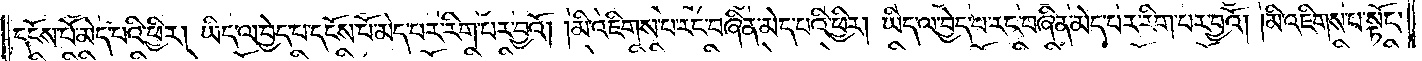དངོས་པོ་མེད་པའི་ཕྱིར། ཡིད་ལ་བྱེད་པ་དངོས་པོ་མེད་པར་རིག་པར་བྱའོ། །མི་འཇིགས་པ་རང་བཞིན་མེད་པའི་ཕྱིར། ཡིད་ལ་བྱེད་པ་རང་བཞིན་མེད་པར་རིག་པར་བྱའོ། །མི་འཇིགས་པ་སྟོང་
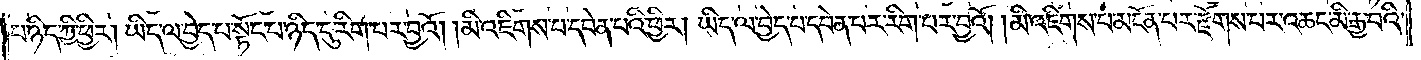པ་ཉིད་ཀྱི་ཕྱིར། ཡིད་ལ་བྱེད་པ་སྟོང་པ་ཉིད་དུ་རིག་པར་བྱའོ། །མི་འཇིགས་པ་དབེན་པའི་ཕྱིར། ཡིད་ལ་བྱེད་པ་དབེན་པར་རིག་པར་བྱའོ། །མི་འཇིགས་པ་མངོན་པར་རྫོགས་པར་འཚང་མི་རྒྱ་བའི་
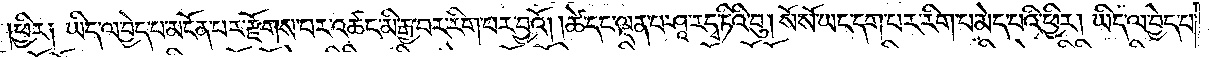ཕྱིར༏ ཡིད་ལ་བྱེད་པ་མངོན་པར་རྫོགས་པར་འཚང་མི་རྒྱ་བར་རིག་པར་བྱའོ། །ཚེ་དང་ལྡན་པ་ཤཱ་ར་དྭ་ཏིའི་བུ། སོ་སོ་ཡང་དག་པར་རིག་པ་མེད་པའི་ཕྱིར། ཡིད་ལ་བྱེད་པ་
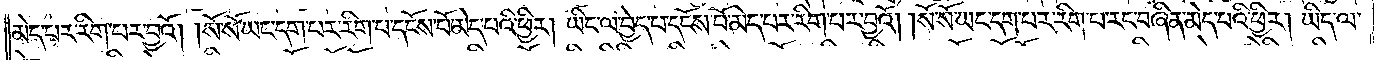མེད་པར་རིག་པར་བྱའོ། །སོ་སོ་ཡང་དག་པར་རིག་པ་དངོས་པོ་མེད་པའི་ཕྱིར། ཡིད་ལ་བྱེད་པ་དངོས་པོ་མེད་པར་རིག་པར་བྱའོ། །སོ་སོ་ཡང་དག་པར་རིག་པ་རང་བཞིན་མེད་པའི་ཕྱིར། ཡིད་ལ་
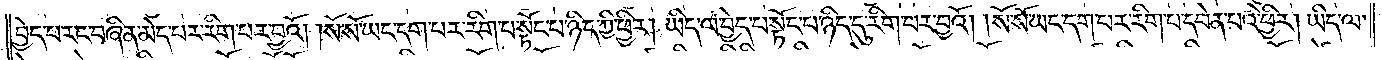བྱེད་པ་རང་བཞིན་མེད་པར་རིག་པར་བྱའོ། །སོ་སོ་ཡང་དག་པར་རིག་པ་སྟོང་པ་ཉིད་ཀྱི་ཕྱིར། ཡིད་ལ་བྱེད་པ་སྟོང་པ་ཉིད་དུ་རིག་པར་བྱའོ། །སོ་སོ་ཡང་དག་པར་རིག་པ་དབེན་པའི་ཕྱིར། ཡིད་ལ་
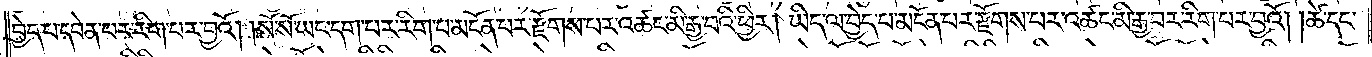བྱེད་པ་དབེན་པར་རིག་པར་བྱའོ། །སོ་སོ་ཡང་དག་པར་རིག་པ་མངོན་པར་རྫོགས་པར་འཚང་མི་རྒྱ་བའི་ཕྱིར། ཡིད་ལ་བྱེད་པ་མངོན་པར་རྫོགས་པར་འཚང་མི་རྒྱ་བར་རིག་པར་བྱའོ། །ཚེ་དང་
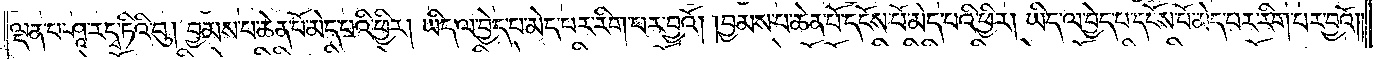ལྡན་པ་ཤཱ་ར་དྭ་ཏིའི་བུ། བྱམས་པ་ཆེན་པོ་མེད་པའི་ཕྱིར། ཡིད་ལ་བྱེད་པ་མེད་པར་རིག་པར་བྱའོ། །བྱམས་པ་ཆེན་པོ་དངོས་པོ་མེད་པའི་ཕྱིར། ཡིད་ལ་བྱེད་པ་དངོས་པོ་མེད་པར་རིག་པར་བྱའོ། །
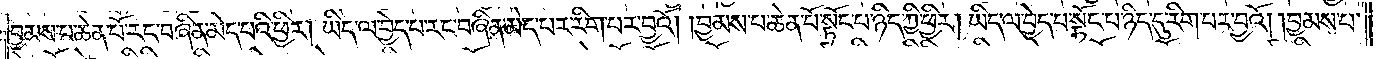བྱམས་པ་ཆེན་པོ་རང་བཞིན་མེད་པའི་ཕྱིར། ཡིད་ལ་བྱེད་པ་རང་བཞིན་མེད་པར་རིག་པར་བྱའོ། །བྱམས་པ་ཆེན་པོ་སྟོང་པ་ཉིད་ཀྱི་ཕྱིར། ཡིད་ལ་བྱེད་པ་སྟོང་པ་ཉིད་དུ་རིག་པར་བྱའོ། །བྱམས་པ་
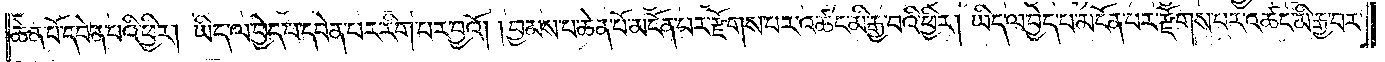ཆེན་པོ་དབེན་པའི་ཕྱིར། ཡིད་ལ་བྱེད་པ་དབེན་པར་རིག་པར་བྱའོ། །བྱམས་པ་ཆེན་པོ་མངོན་པར་རྫོགས་པར་འཚང་མི་རྒྱ་བའི་ཕྱིར། ཡིད་ལ་བྱེད་པ་མངོན་པར་རྫོགས་པར་འཚང་མི་རྒྱ་བར་
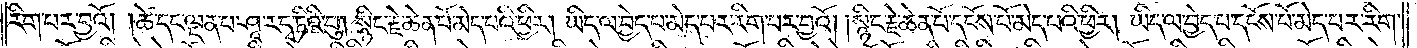རིག་པར་བྱའོ། །ཚེ་དང་ལྡན་པ་ཤཱ་ར་དྭ་ཏིའི་བུ། སྙིང་རྗེ་ཆེན་པོ་མེད་པའི་ཕྱིར། ཡིད་ལ་བྱེད་པ་མེད་པར་རིག་པར་བྱའོ། །སྙིང་རྗེ་ཆེན་པོ་དངོས་པོ་མེད་པའི་ཕྱིར། ཡིད་ལ་བྱེད་པ་དངོས་པོ་མེད་པར་རིག་
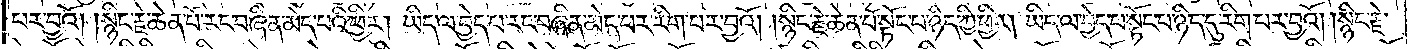པར་བྱའོ། །སྙིང་རྗེ་ཆེན་པོ་རང་བཞིན་མེད་པའི་ཕྱིར། ཡིད་ལ་བྱེད་པ་རང་བཞིན་མེད་པར་རིག་པར་བྱའོ། །སྙིང་རྗེ་ཆེན་པོ་སྟོང་པ་ཉིད་ཀྱི་ཕྱིར། ཡིད་ལ་བྱེད་པ་སྟོང་པ་ཉིད་དུ་རིག་པར་བྱའོ། །སྙིང་རྗེ་
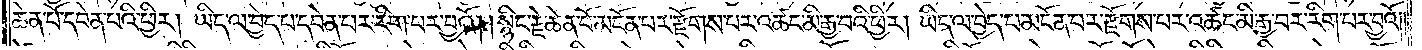ཆེན་པོ་དབེན་པའི་ཕྱིར། ཡིད་ལ་བྱེད་པ་དབེན་པར་རིག་པར་བྱའོ། ། སྙིང་རྗེ་ཆེན་པོ་མངོན་པར་རྫོགས་པར་འཚང་མི་རྒྱ་བའི་ཕྱིར། ཡིད་ལ་བྱེད་པ་མངོན་པར་རྫོགས་པར་འཚང་མི་རྒྱ་བར་རིག་པར་བྱའོ། །
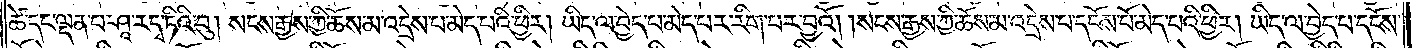ཚེ་དང་ལྡན་པ་ཤཱ་ར་དྭ་ཏིའི་བུ། སངས་རྒྱས་ཀྱི་ཆོས་མ་འདྲེས་པ་མེད་པའི་ཕྱིར། ཡིད་ལ་བྱེད་པ་མེད་པར་རིག་པར་བྱའོ། །སངས་རྒྱས་ཀྱི་ཆོས་མ་འདྲེས་པ་དངོས་པོ་མེད་པའི་ཕྱིར། ཡིད་ལ་བྱེད་པ་དངོས་
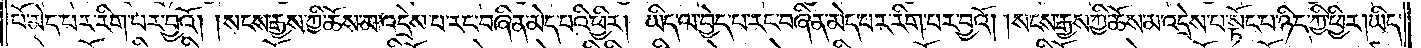པོ་མེད་པར་རིག་པར་བྱའོ། །སངས་རྒྱས་ཀྱི་ཆོས་མ་འདྲེས་པ་རང་བཞིན་མེད་པའི་ཕྱིར། ཡིད་ལ་བྱེད་པ་རང་བཞིན་མེད་པར་རིག་པར་བྱའོ། །སངས་རྒྱས་ཀྱི་ཆོས་མ་འདྲེས་པ་སྟོང་པ་ཉིད་ཀྱི་ཕྱིར། ཡིད་
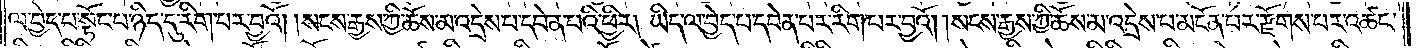ལ་བྱེད་པ་སྟོང་པ་ཉིད་དུ་རིག་པར་བྱའོ། །སངས་རྒྱས་ཀྱི་ཆོས་མ་འདྲེས་པ་དབེན་པའི་ཕྱིར། ཡིད་ལ་བྱེད་པ་དབེན་པར་རིག་པར་བྱའོ། །སངས་རྒྱས་ཀྱི་ཆོས་མ་འདྲེས་པ་མངོན་པར་རྫོགས་པར་འཚང་
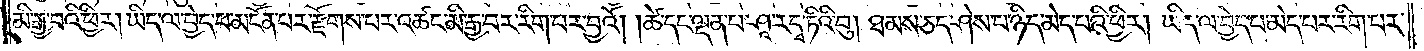མི་རྒྱ་བའི་ཕྱིར། ཡིད་ལ་བྱེད་པ་མངོན་པར་རྫོགས་པར་འཚང་མི་རྒྱ་བར་རིག་པར་བྱའོ། །ཚེ་དང་ལྡན་པ་ཤཱ་ར་དྭ་ཏིའི་བུ། ཐམས་ཅད་ཤེས་པ་ཉིད་མེད་པའི་ཕྱིར། ཡིད་ལ་བྱེད་པ་མེད་པར་རིག་པར་
